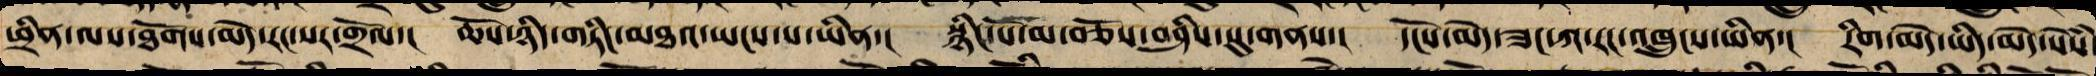ཕྲིན་ལས་ཐོགས་མེད་རང་སར་གྲོལ་། ཆོས་ཉིད་གཏིང་མཐའ་ཡངས་པ་ཡིན་། སྙིང་པོ་མ་བཅོས་གཤིས་སུ་གནས་། དངོས་མེད་ཟང་ཀ་རང་འཁྲུངས་ཡིན་། རིག་མེད་ཡིད་མེད་སེཾས་
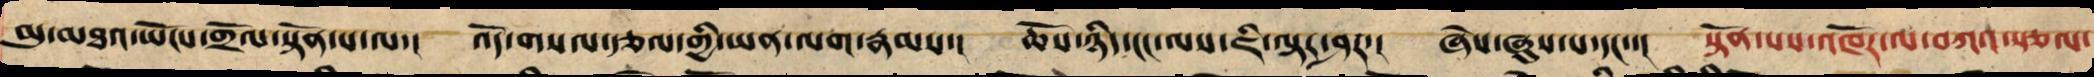མུ་མཐའ་ཡོངས་གྲོལ་སྟོན་པ་ལ་། འོད་གསལ་རྩལ་གྱི་ཡན་ལག་རྣམས་། ཆོས་ཉིད་ངང་ལས་ཇི་ལྟར་ཤར་། ཞེས་ཞུས་པ་དང་་། སྟོན་པས་འཁོར་ལ་བཀའ་སྩལ་
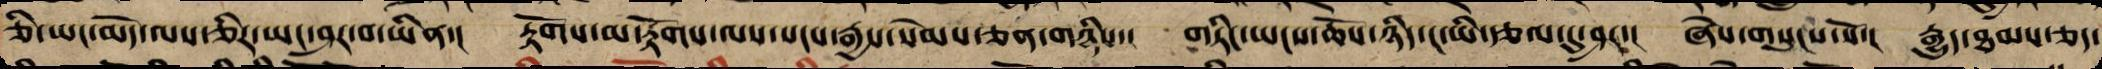ཅི་ཡང་མེད་ལས་ཅིར་ཡང་ཤར་བ་ཡིན་། རྟོགས་མ་རྟོགས་ལས་སངས་རྒྱས་སེམས་ཅན་གཉིས་། གཏིང་ཡངས་ཆོས་ཉིད་ང་ཡི་རྩལ་དུ་ཤར་། ཞེས་གསུངས་སོ་། རྒྱུད་ཐམས་ཅད་
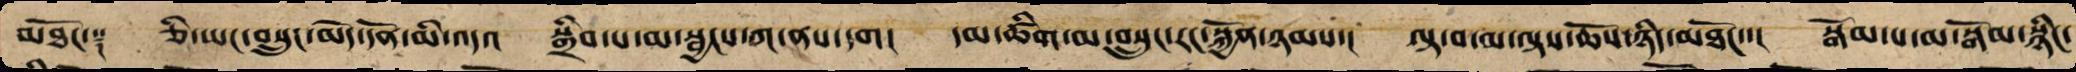མཐོང་༑ ཅི་ཡང་བསྲུང་མེད་དོན་མི་འདའ སྒྲིབ་པ་མ་སྦྱངས་ཀ་ནས་དག། དམ་ཚིག་མ་བསྲུང་རང་སྐྱོན་ཉམས་། ལྟ་བ་མ་ལྟས་ཆོས་ཉིད་མཐོང་་། སྒོམ་པ་མ་སྒོམ་སྙིང་
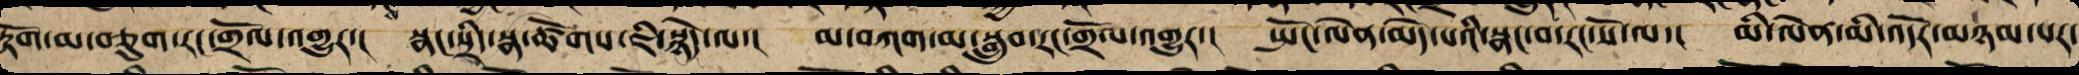རྟོག་མ་བཅུག་རང་གྲོལ་འགྱུར་། སྣང་སྲིད་སྣ་ཚོགས་ཇི་སྙེད་ལ་། མ་བཀག་མ་སྒྲུབ་རང་གྲོལ་འགྱུར་། སྤོང་ལེན་མེད་པའི་སྣང་བ་རང་སོ་ལ་། མི་ལེན་མི་འདོར་མཉམ་པར་
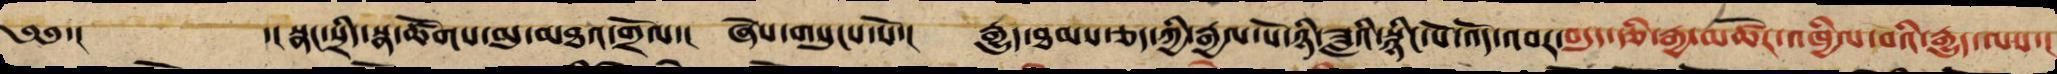༄༅་། ་།སྣང་སྲིད་སྣ་ཚོགས་མུ་མཐའ་གྲོལ་། ཞེས་གསུངས་སོ་། རྒྱུད་ཐམས་ཅད་ཀྱི་རྒྱལ་པོ་ཉི་ཟླའི་སྙིང་པོ་འོད་འབར་བ་བདུད་རྩིའི་རྒྱ་མཚོ་འཁྱིལ་བའི་རྒྱུད་ལས་།
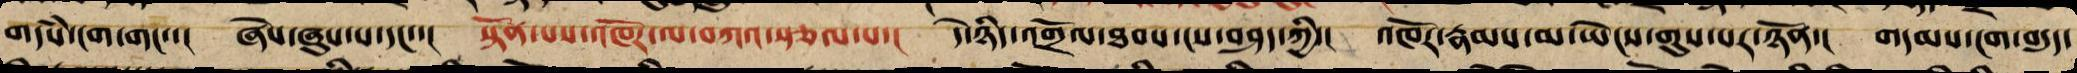གདཾས་ངག་གང་་། ཞེས་ཞུས་པ་དང་་། སྟོན་པས་འཁོར་ལ་བཀའ་སྩལ་པ་། དེ་ཉིད་འགྲོལ་ཐབས་ངས་བཤད་ཀྱི་། འཁོར་རྣམས་མ་ཡེངས་གུས་པར་ཉོན་། གདམས་ངག་བདུད་
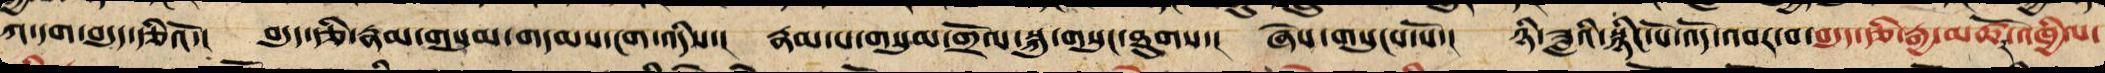ཀ་དག་བདུད་རྩིའོ་། བདུད་རྩི་རྣམ་གསུམ་གདམས་ངག་འདིས་། རྣམ་པ་གསུམ་གྲོལ་སྐུ་གསུང་ཐུགས་། ཞེས་གསུངས་སོ་། ཉི་ཟླའི་སྙིང་པོ་འོད་འབར་བ་བདུད་རྩི་རྒྱ་མཚོ་འཁྱིལ་
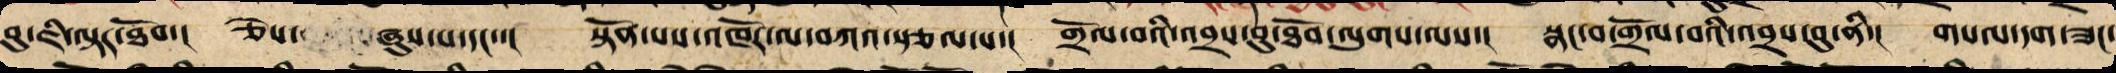བུ་ཇི་ལྟར་ཐོབ་། ཅེས་ ཞུས་པ་དང་་། སྟོན་པས་འཁོར་ལ་བཀའ་སྩལ་པ་། གྲོལ་བའི་འབྲས་བུ་ཐོབ་ལུགས་ལས་། སྣང་བ་གྲོལ་བའི་འབྲས་བུ་ནི་། གསལ་དག་ཟང་
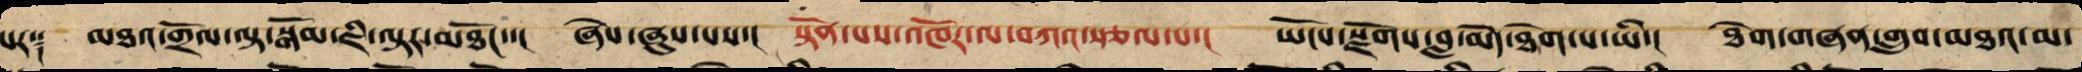པར༑ མཐའ་གྲོལ་ལྟ་སྒོམ་ཇི་ལྟར་མཐོང་་། ཞེས་ཞུས་པས་། སྟོན་པས་འཁོར་ལ་བཀའ་སྩལ་པ་། ཡོངས་སྫོགས་བླ་མེད་ཐེག་པ་ཡི་། ཐེག་གཞན་གྲུབ་མཐའ་མ་
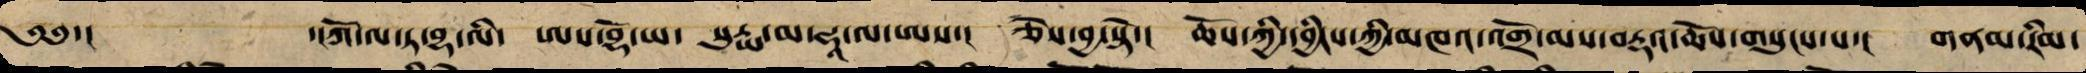༄༅་། ་།ཀོ་ལ་ཏ་བྷ་ལི་། ཨས་བྷོ་ཡ་ སུརྻ་མ་ཧཱ་ལ་ཨས་། ཅེས་བྱ་སྟེ་། ཆོས་ཀྱི་དབྱིངས་ཀྱི་མཁའ་འགྲོ་མས་བརྡའ་ཆོས་གསུངས་པ་། གནམ་རིམ་
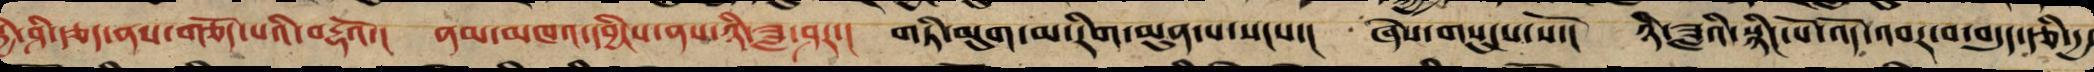སྐྱེ་ཤི་རྩད་ནས་གཅོད་པའི་བརྡའོ་། ནམ་མཁའི་དབྱིངས་ནས་ཉི་ཟླ་ཤར་། གཏི་མུག་མ་རིག་མུན་པ་སངས་། ཞེས་གསུངས་སོ་། ཉི་ཟླའི་སྙིང་པོ་འོད་འབར་བ་བདུད་རྩི་དྱ་
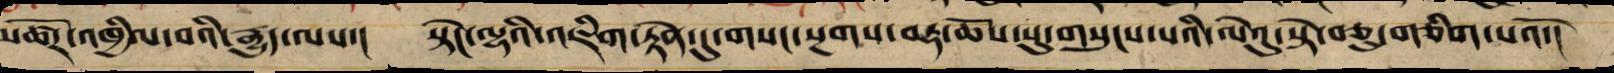མཚོར་འཁྱིལ་པའི་རྒྱུད་ལས་། སྟེང་ལྷའི་འཇིག་རྟེན་དུ་གསང་སྔགས་བརྡའ་ཆོས་སུ་གསུངས་པའི་ལེའུ་སྟེ་བཅུ་གཅིག་པའོ་།།
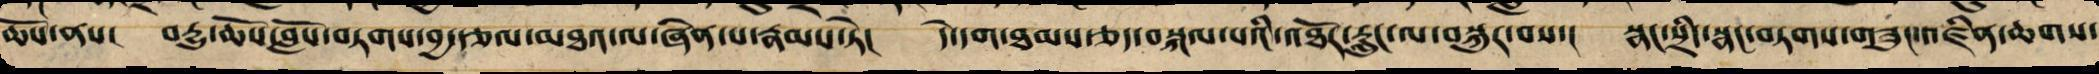ཆོས་ནས། རྒྱུ་ཆོས་བློས་བཏགས་བྱ་རྩལ་མཐའ་ལ་ཞེན་པ་རྣམས་ཏེ་། དེ་དག་ཐམས་ཅད་བསྐལ་པའི་འཐོར་རླུང་ལ་བསྐུར་བས་། སྣང་སྲིད་སྣང་བཏགས་གཟུང་འཛིན་ཆགས་
